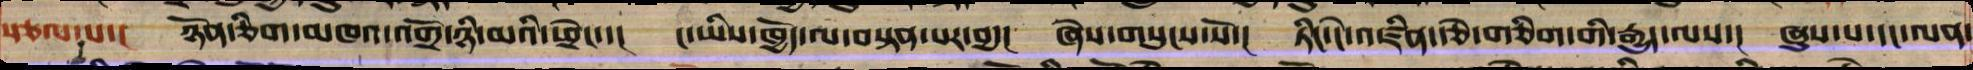སྩལ་པ་། ཉོན་ཅིག་མཁའ་འགྲོ་ཉི་མའི་ཕྲེང་། ང་ཡིས་ཁྱོད་ལ་བསྟན་པར་བྱ་། ཞེས་གསུངས་སོ་། ཏིང་ངེ་འཛིན་རྩེ་གཅིག་གི་རྒྱུད་ལས་། ཞུས་པ་དང་ལན་
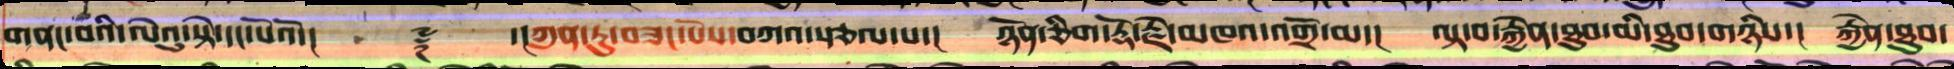གནང་བའི་ལེའུ་སྟེ་དང་པོའོ་།། ༈ །་།ཀུན་ཏུ་བཟང་པོས་བཀའ་སྩལ་པ་། ཉོན་ཅིག་རྡོ་རྗེ་མཁའ་འགྲོ་མ་། ལྟ་བ་རྐྱེན་ཐུབ་མི་ཐུབ་གཉིས།་ རྐྱེན་ཐུབ་
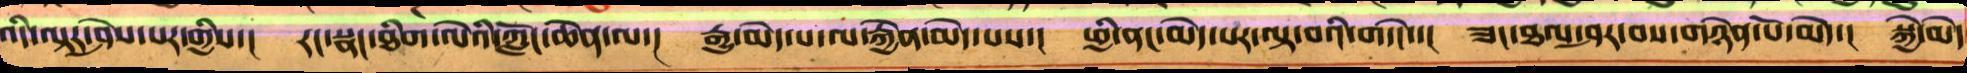འདི་ལྟར་ཤེས་པར་གྱིས་། རང་སྣང་ཐིག་ལེའི་ཀློང་ཆེན་ལ་། རྒྱུ་མེད་པ་ལ་རྐྱེན་མེད་པས་། ཕྱི་ནང་མེད་པར་ལྟ་བའི་གདེང་་། ཟང་ཐལ་ཤར་བས་གཉེན་པོ་མེད་། སྐྱེ་མེད
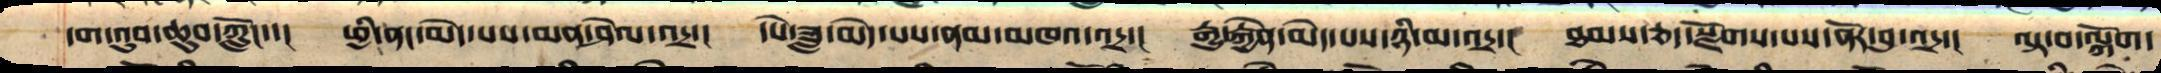དག་འུབ་ཆུབ་ཀློང་་། ཕྱི་ནང་མེད་པས་མན་ཤེལ་འདྲ་། དཔེ་ཟླ་མེད་པས་ནམ་མཁའ་འདྲ་། རྒྱུ་རྐྱེན་མེད་པས་ཉི་མ་འད། ཐམས་ཅད་སྫོགས་པས་ནོར་བུ་འདྲ་། ལྟ་བ་ལྐོག་
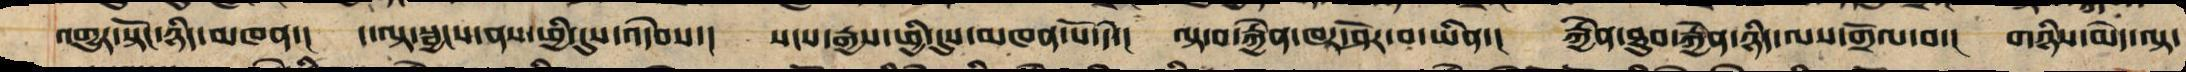འགྱུར་སྟོང་ཉིད་མཁན་། ད་ལྟ་སྦྱངས་ནས་ཕྱི་དུས་འདེབས་། སངས་རྒྱས་ཕྱི་དུས་མཁན་པོ་དེ་། ལྟ་བ་རྐྱེན་ཁར་ཤོར་བ་ཡིན་། རྐྱེན་ཐུབ་རྐྱེན་ཉིད་ལས་གྲོལ་བ་། གཉིས་མེད་ལྟ་
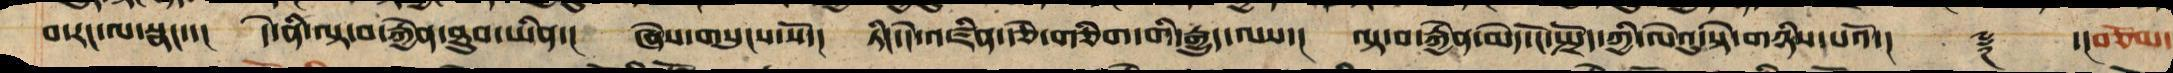བ་རང་ལ་སྣང་་། དེ་ནི་ལྟ་བ་རྐྱེན་ཐུབ་ཡིན་། ཞེས་གསུངས་སོ་། ཏིང་ངེ་འཛིན་རྩེ་གཅིག་གི་རྒྱུད་ལས་། ལྟ་བ་རྐྱེན་མེད་ངོ་སྤྲོད་ཀྱི་ལེའུ་སྟེ་གཉིས་པའོ་།། ༈ ་།།བཅོམ་
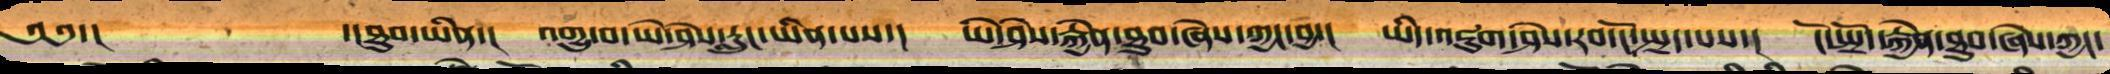༄༅་། ་།ཐུབ་ཡིན་། འགྱུ་བ་ཡེ་ཤེས་རླུང་ཡིན་པས་། ཡེ་ཤེས་རྐྱེན་ཐུབ་ཞེས་ཀྱང་བྱ་། ཡིད་འཇུག་ཤེས་རབ་ངོ་སྤྲད་པས་། ངོ་སྤྲོད་རྐྱེན་ཐུབ་ཞེས་ཀྱང་
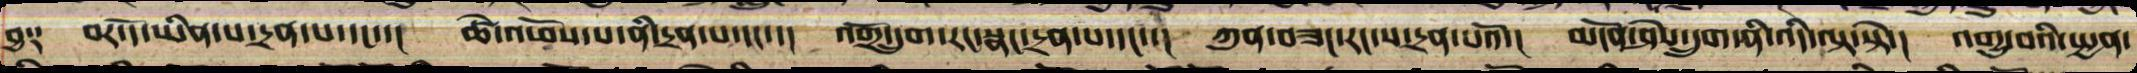བྱ༑ བར་དོ་ཡིན་པ་དྲན་པ་དང་་། ཚེ་འཕོས་པ་ནི་དྲན་པ་དང་་། འགྲོ་དྲུག་རང་སྣང་དྲན་པ་དང་་། ཀུན་བཟང་རང་ས་དྲན་པའོ་། མངོན་ཤེས་དྲུག་ནི་འདི་ལྟ་སྟེ་། འགྱུ་བའི་སྤྱན་
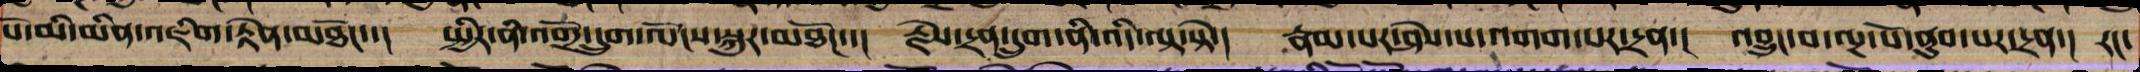པོ་མི་མིན་འཇིག་རྟེན་མཐོང་་། སྤྱིར་ནི་འགྲོ་དྲུག་ལོངས་སྐུར་མཐོང་་། རྗེས་དྲན་དྲུག་ནི་འདི་སྟ་སྟེ་། རྣམ་པར་ཤེས་པ་འགག་པར་དྲན་། འབྱུང་བ་ལྔ་པོ་ནུབ་པར་དྲན་། རང་
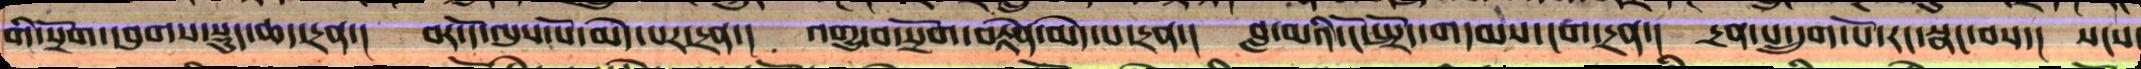གི་སྲོག་དབུགས་སྡུད་ཆད་དྲན་། བར་དོ་ལུས་པོ་མེད་པ་དྲན་། འགྱུ་བ་སྲོག་རྟེན་མེད་པ་དྲན་། བླ་མའི་ངོ་སྤྲོད་གདམས་པ་དྲན་། དྲན་པ་དྲུག་པོ་རང་སྣང་བས་། སངས་
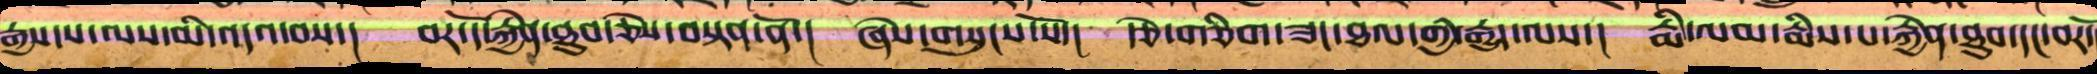རྒྱས་ས་ལས་མི་འདའ་བས་། བར་དོ་རྐྱེན་ཐུབ་ཅེས་བསྟན་ནོ་། ཞེས་གསུངས་སོ་། རྩེ་གཅིག་ཟང་ཐལ་གྱི་རྒྱུད་ལས་། རྨི་ལམ་རྨིས་པ་རྐྱེན་ཐུབ་དང་བར་
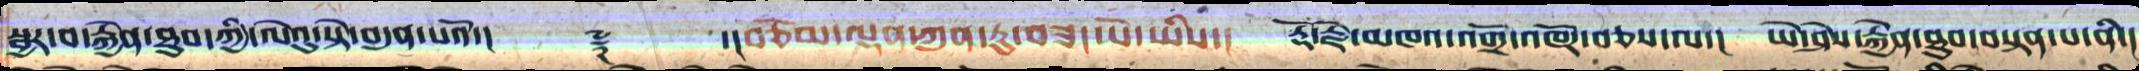སྦྱར་བ་རྐྱེན་ཐུབ་ཀྱི་ལེའུ་སྟེ་བདུན་པའོ་།། ༈ ་།བཅོམ་ལྡན་ཀུན་ཏུ་བཟང་པོ་ཡིས་། རྡོ་རྗེ་མཁའ་འགྲོ་འཁོར་བཅས་ལ་། ཡེ་ཤེས་རྐྱེན་ཐུབ་བསྟན་པ་ནི་།
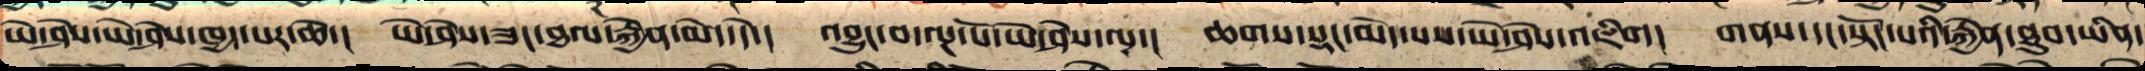ཡེ་ཤེས་ཡེ་ཤེས་ཁྱད་པར་ཆེ་། ཡེ་ཤེས་ཟང་ཐལ་རྐྱེན་མེད་དེ་། འབྱུང་བ་ལྔ་པོ་ཡེ་ཤེས་ལྔ་། ཆགས་སྡང་མེད་པས་ཡེ་ཤེས་འཇིག། གནས་དང་སྟོང་པའི་རྐྱེན་ཐུབ་ཡིན་
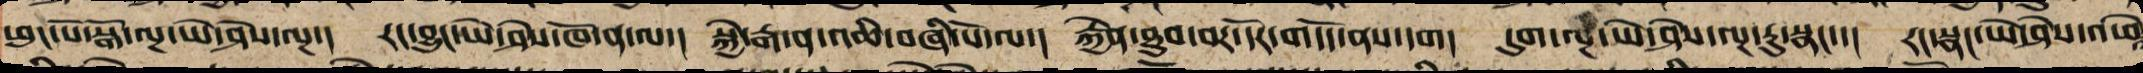ཕུང་པོ་སྒོ་ལྔ་ཡེ་ཤེས་ལྔ་། རང་བྱུང་ཡེ་ཤེས་ཁོ་ན་ལ་། སྐྱེ་རྒ་ན་འཆི་བཞི་པོ་ལ་། རྐྱེན་ཐུབ་བར་དོར་གདོད་ནས་དག། དུག་ལྔ་ཡེ་ཤེས་ལྔ་རུ་སྣང་་། རང་སྣང་ཡེ་ཤེས་འཕེ
